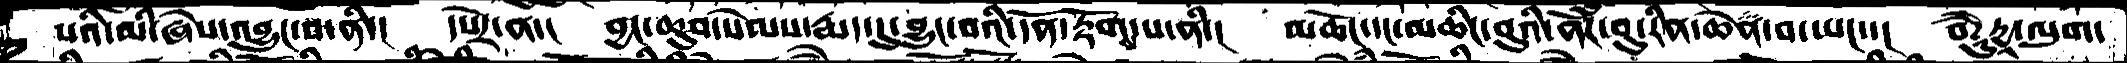པའི་མི་ཞེས་འབྱུང་བ་ནི་།  དཔེར་ན་།  བྱང་ཆུབ་སེམས་རྨད་དུ་བྱུང་བའི་དོན་རྟོགས་པ་ནི་།  མཆོང་དང་མཆིང་བུའི་ནོར་བུ་རིན་ཆེན་བ་ཡང་་།  བཻཌཱུརྱཱ་ལུག་
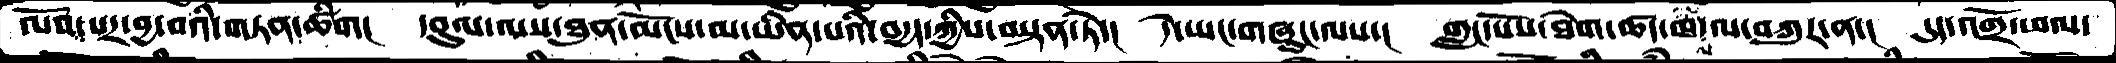ལོབ་པར་བྱ་བའི་གཏན་ཚིག།  དབུལ་ལས་ཐུན་མོངས་མ་ཡིན་པའི་བདྱད་ཀྱིས་བསྟན་ཏེ་།  དེ་ཡང་གཞུང་ལས་།  གླང་པོས་ཐེག་ཚད་ཁ་ལ་བཀུར་ན་།  དུད་འགྲོ་ཕལ་
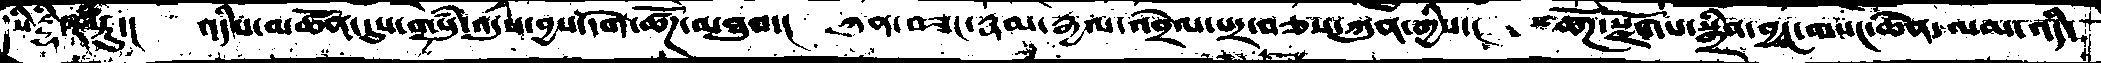སིདྡྷི་རསྟུ་།  འདིས་མཚོན་དུས་གསུཾ་འདུས་བྱས་དགེ་ཚོཌ་མཐུས་།  ཀུན་བཟང་རྣམ་རྒྱལ་འབྲེལ་པར་བཅས་ཀུན་གྱིས་།  ཚོཌ་སྫོགས་སྒྲིབ་བྱང་གསང་ཆེན་ལམ་འདི་
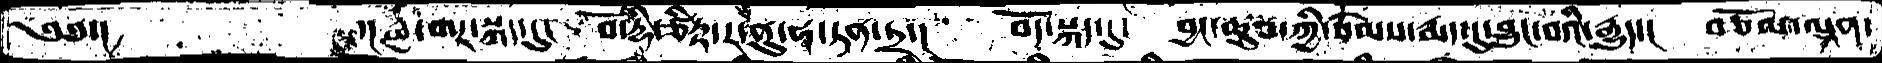༄༅་།    ་།རྒྱ་གར་སྐད་དུ།  བོ་དྷི་ཙིཏྟ་ར་ནུ་ཧ་ཏན་ཏྲ་།  བོད་སྐད་དུ།  བྱང་ཆུབ་ཀྱི་སེམས་རྨད་དུ་བྱུང་བའི་རྒྱུད་།  བཅོམ་ལྡན་
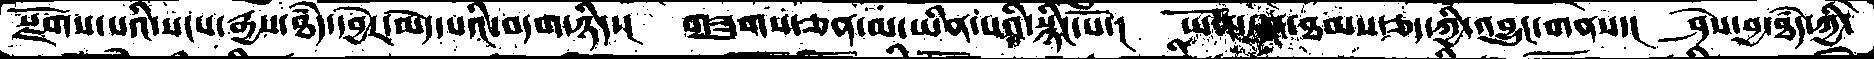སྫོགས་པའི་སངས་རྒྱས་ཐདཾ་དབྱེར་མེད་པའི་བདག་ཉིད་།  གཟུགས་ཅན་མ་ཡིན་པའི་སྙིང་པོ་།  ཡོན་ཏན་ཐམས་ཅད་ཀྱི་འབྱུང་གནས་།  ཤེས་བྱ་ཐདཾ་ཀྱི་
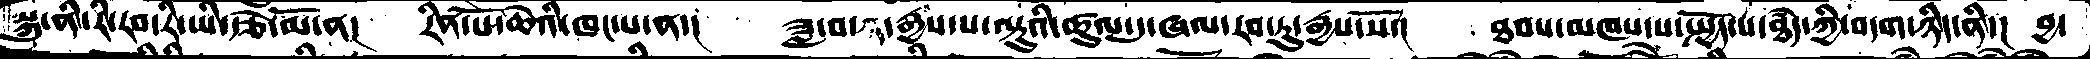སྐུ་ནི་རི་རབ་རི་ཡི་རྩེ་མོ་ན་།  རིན་པོ་ཆེའི་ཁང་པ་ན་།  ཟླ་བ་ཉ་རྒྱས་པ་ལྟུའི་ཚུལ་དུ་ཞལ་རབ་ཏུ་རྒྱས་སོ་།  ཐབས་མཁས་པ་སྤྱོད་པ་ཐདཾ་ཀྱི་བདག་ཉིད་ནི་།  བྱ་
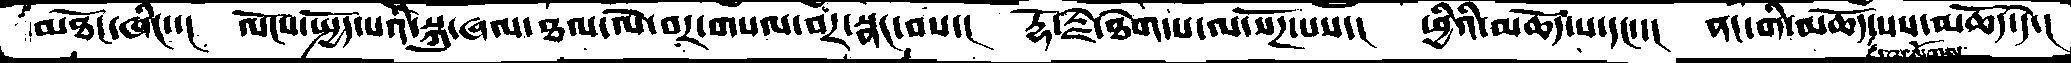མཐོང་ཞིང་་།  ལོངས་སྤྱོད་པའི་སྐུ་ཞལ་ཐལ་ལེ་བར་གསལ་བར་སྣང་བས་།  རྡོ་རྗེ་ཐེག་པ་ལ་སོཌ་པས་།  ཕྱིའི་མཆོད་པ་དང་་།  ནང་གི་མཆོད་པས་མཆོད་དེ་།
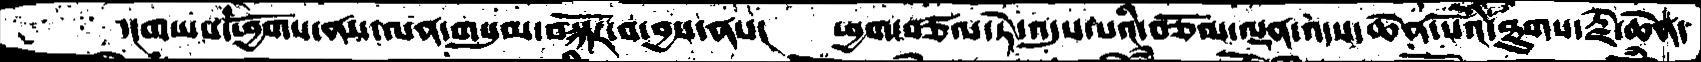་།གཡས་ཕྱོགས་ནས་ལན་གསུམ་བསྐོར་བ་བྱས་ནས།  ཕྱག་བཙལ་ཏེ་འདུས་པའི་བཅོམ་ལྡན་འདས་ཆེན་པོའི་ཐུགས་རྗེ་ཆེན་
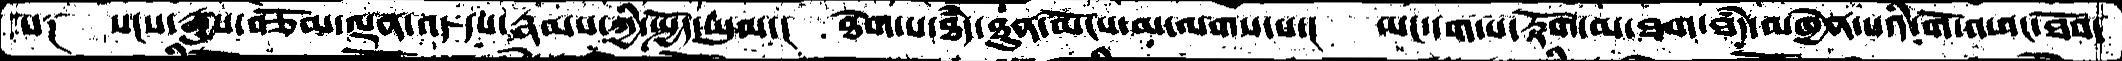པ༑  སངས་རྒྱས་བཅོམ་ལྡན་འདས་རྣམས་ཀྱི་སྤྱོད་ཡུལ་།  ཐེག་པ་ཐདཾ་ཐུན་མོངས་མ་ལགས་པ་།  ཡང་དག་པ་རྟོག་མ་ཐག་ཐདཾ་མཁྱེན་པའི་གོ་འཕང་ཐོབ་
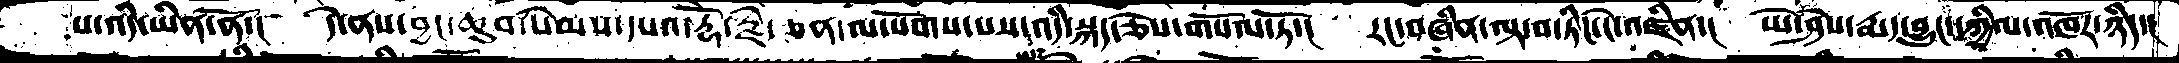པ་འདི་ཡིན་ནོ་།  དེ་ནས་བྱང་ཆུབ་སེམས་དཔའ་རྡོ་རྗེ་ཅན་ལ་སོགས་པས་ཡང་འདི་སྐད་ཅེས་གསོལ་ཏེ་།  རང་བཞིན་ལྟ་བ་ཏིང་ངེ་འཛིན་།  ཡེ་ཤེས་རྨད་བྱུང་དཀྱིལ་འཁོར་ཉིད་།
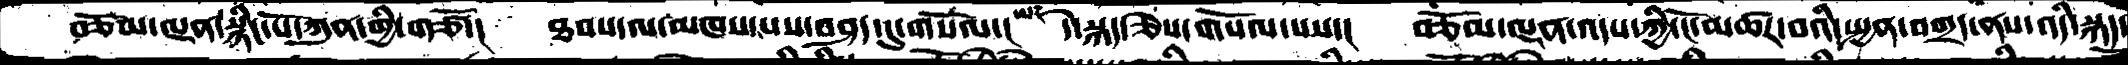བཅོམ་ལྡན་སྙིང་པོ་ཀུན་གྱི་གཙོ་།  ཐབས་ལ་མཁས་པས་བཤད་དུ་གསོལ་།  དེ་སྐད་ཅེས་གསོལ་པས་།  བཅོམ་ལྡན་འདས་ཀྱི་ངོ་མཚར་བའི་སྤྱན་བགྲད་ནས་འདི་སྐད་
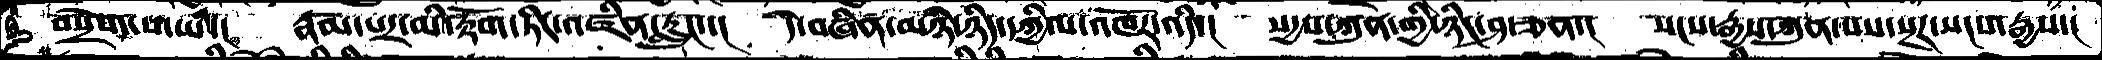བསྲེག་པ་ཡི་།  རྣམ་པར་མི་རྟོག་ཏིང་འཛིན་རླུང་་།  དེ་བཞིན་མཉཾ་ཉིད་དཀྱིལ་འཁོར་འདི་།  སདྱས་ཀུན་གྱི་ཉིང་ཤ་ཅན་།  སངས་རྒྱས་ཀུན་པས་སྔར་སངས་རྒྱས་།
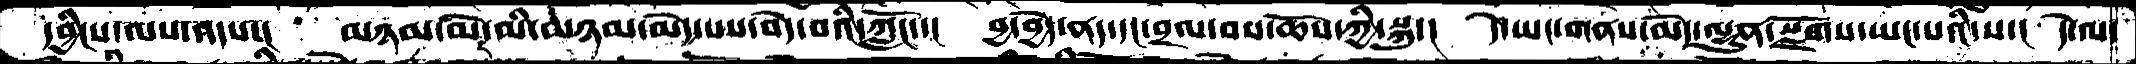དབྱིངས་ལས་འདས་།  མཉམ་མེད་མི་མཉམ་མེད་པས་བདེ་བའི་ཀློང་་།  བྱ་བྱེད་ནད་དང་བྲལ་བས་ཆོས་ཀྱི་སྐུ་།  དེ་ཡང་གནས་མེད་ལྷུན་སྫོགས་ཡང་པའི་ས་།  དེ་ལ་
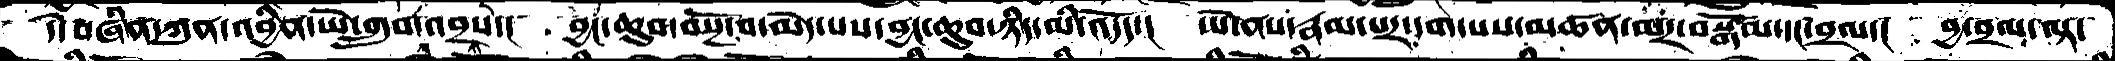དེ་བཞིན་ཀུན་འབྱིན་ཡེ་གྲུབ་འབྲས་།  བྱང་ཆུབ་བསྔོ་བ་མེད་པས་བྱང་ཆུབ་ཉིད་མི་འདོད་།  ཡེ་ནས་རྣམ་པར་དག་པས་མཚན་མར་བསྒོམ་དང་བྲལ་།  བྱ་བྲལ་ལྟ་
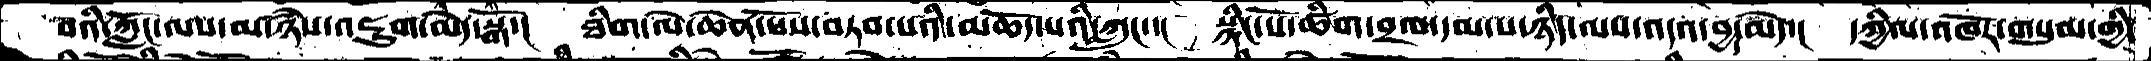བའི་ཀློང་ལས་མ་ཉཾས་འཇུག་མེད་སྒོ་།  ཐིག་ལེ་ཆེན་པོས་བཏབ་པའི་མཆོད་པའི་ཀླུང་་།  སྙིང་པོ་ཚིག་བྲལ་དམ་པ་ཉིད་ལས་འདས་བྱ་མེད་།  དཀྱིལ་འཁོར་གསུམ་གྱི་
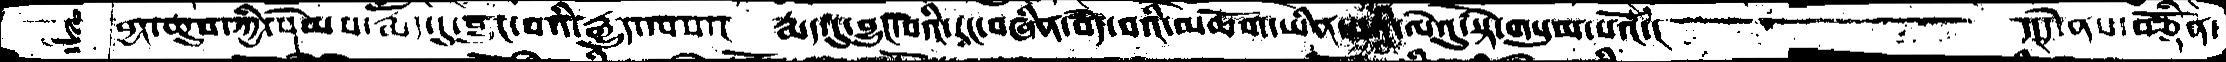བྱང་ཆུབ་ཀྱི་སེམས་རྨད་དུ་བྱུང་བའི་རྒྱུད་ལས་།  རྨད་དུ་བྱུང་བའི་རང་བཞིན་བདེ་བའི་མཆོག་ཡིན་པའི་ལེའུ་སྟེ་གསུམ་པའོ་།    ་།དེ་ནས་བཅྟོཾན་
